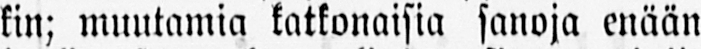kin; muutamia katkonaisia sanoja enään
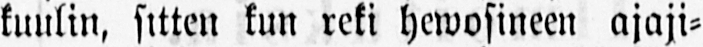kuulin, sitten kun reki hewosineen ajaji-
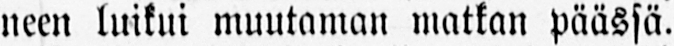neen luikui muutaman matkan päässä.
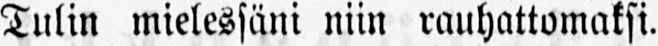Tulin mielessäni niin rauhattomaksi.
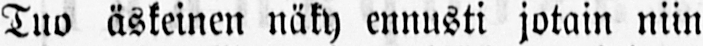Tuo äskeinen näky ennusti jotain niin
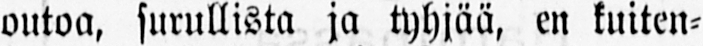outoa, surullista ja tyhjää, en kuiten-
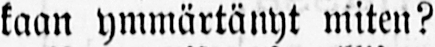kaan ymmärtänyt miten?
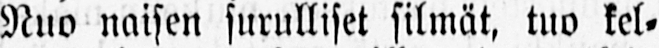Nuo naisen surulliset silmät, tuo kel-
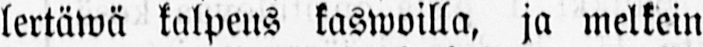lertäwä kalpeus kaswoilla, ja melkein
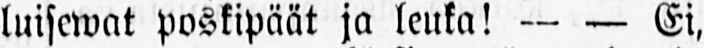luisewat poskipäät ja leuka! — — Ei,
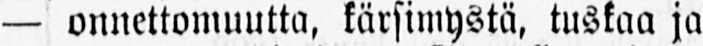— onnettomuutta, kärsimystä, tuskaa ja
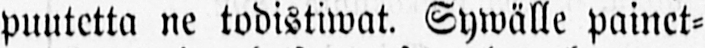puutetta ne todistiwat. Sywälle painet-
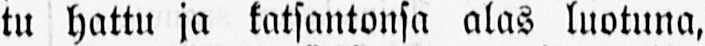tu hattu ja katsantonsa alas luotuna,
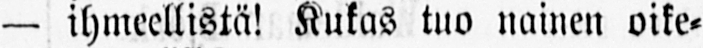— ihmeellistä! Kukas tuo nainen oike-
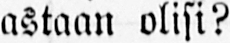astaan olisi?
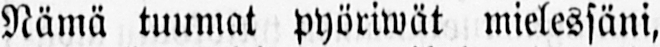Nämä tuumat pyöriwät mielessäni,
